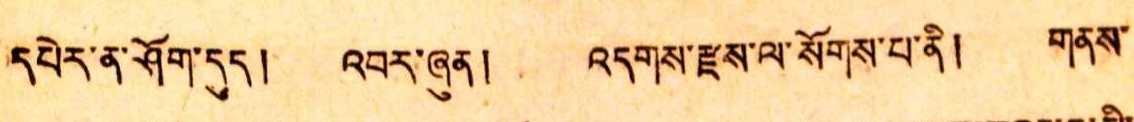འཔེར་ན་ཤོག་དུད། འབར་ཞུན། འདགས་རྫས་ལ་སོགས་པ་ནི། གནས་
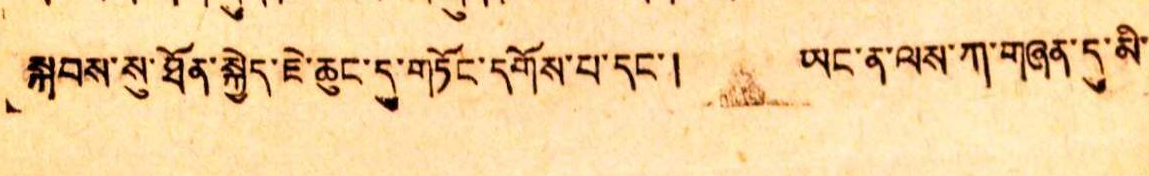སྐབས་སུ་ཐོན་སྐྱེད་ཇེ་ཆུང་དུ་གཏོང་དགོས་པ་དང་། ཡང་ན་ལས་གཞན་དུ་མི་
